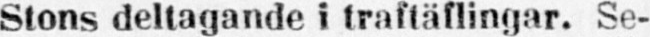Stons deltagande i traftäflingar. Se-
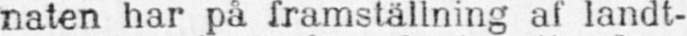naten har på framställning af landt-
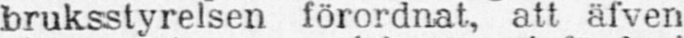bruksstyrelsen förordnat, att äfven
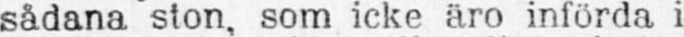sådana ston, som icke äro införda i
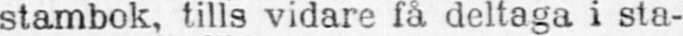stambok, tills vidare få deltaga i sta-
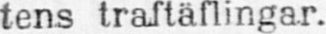tens traftäflingar.
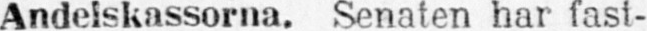Andelskassorna. Senaten har fast-
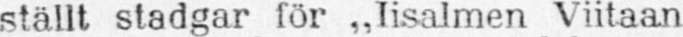ställt stadgar för „Iisalmen Viitaan
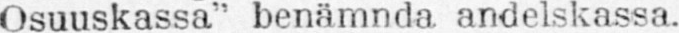Osuuskassa“ benämnda andelskassa.
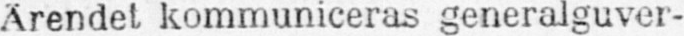Ärendet kommuniceras generalguver-
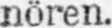nören.
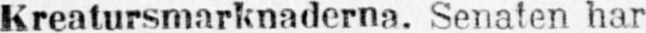Kreatursmarknaderna. Senaten har
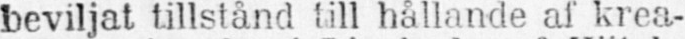beviljat tillstånd till hållande af krea-
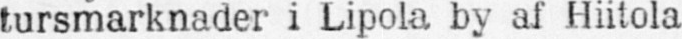tursmarknader i Lipola by af Hiitola
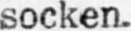socken.
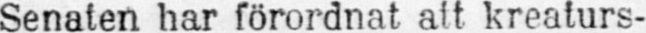Senaten har förordnat att kreaturs-
